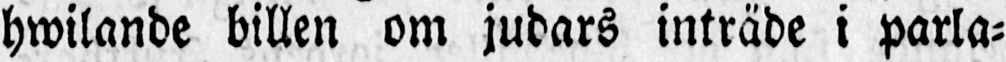hwilande billen om judars inträde i parla-
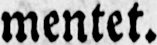mentet.
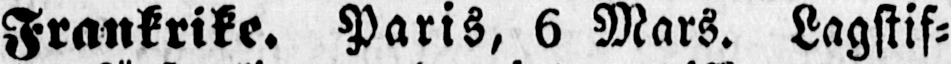Frankrike. Paris, 6 Mars. Lagstif-
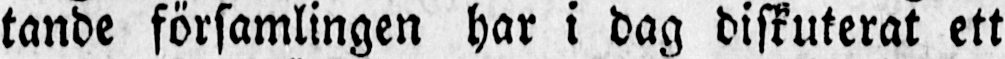tande församlingen har i dag diskuterat ett
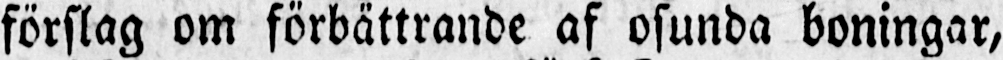förslag om förbättrande af osunda boningar,
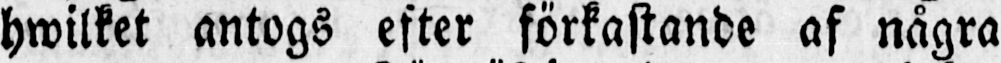hwilket antogs efter förkastande af några
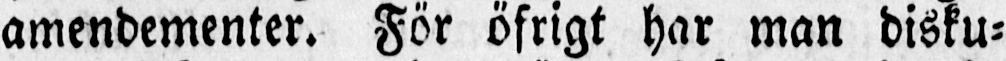amendementer. För öfrigt har man disku-
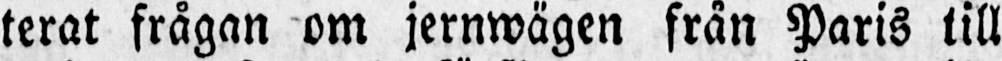terat frågan om jernwägen från Paris till
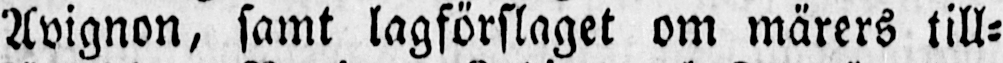Avignon, samt lagförslaget om märers till-
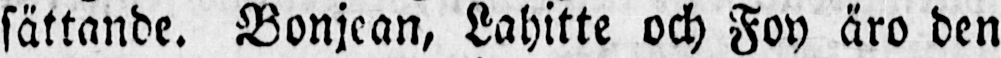sättande. Bonjean, Lahitte och Foy äro den
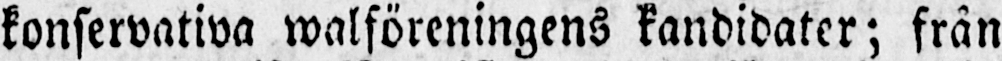konservativa walföreningens kandidater; från
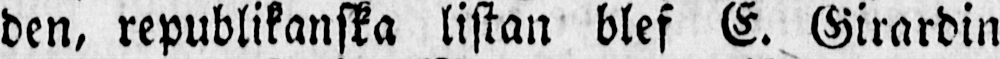den, republikanska listan blef E. Girardin
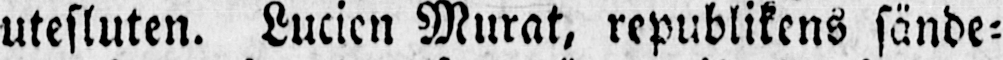utesluten. Lucien Murat, republikens sände-
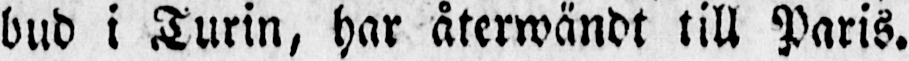bud i Turin, har återwändt till Paris.
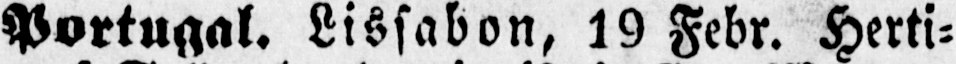Portugal. Lissabon, 19 Febr. Herti-
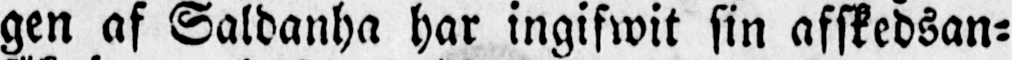gen af Saldanha har ingifwit sin afskedsan-
